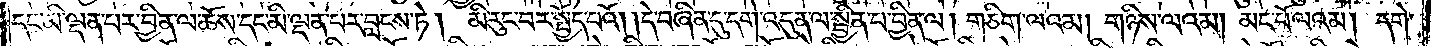དང་མི་ལྡན་པར་བྱིན་ལ་ཆོས་དང་མི་ལྡན་པར་བླངས་ཏེ། མི་རུང་བར་སྤྱོད་པའོ། །དེ་བཞིན་དུ་དགེ་འདུན་ལ་སྦྱིན་པ་བྱིན་ལ། གཅིག་ལའམ། གཉིས་ལའམ། མང་པོ་ལའམ། དགེ་
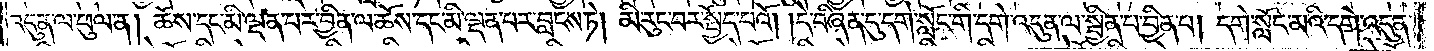འདུན་ལ་ཕུལ་ན། ཆོས་དང་མི་ལྡན་པར་བྱིན་ལ་ཆོས་དང་མི་ལྡན་པར་བླངས་ཏེ། མི་རུང་བར་སྤྱོད་པའོ། །དེ་བཞིན་དུ་དགེ་སློང་གི་དགེ་འདུན་ལ་སྦྱིན་པ་བྱིན་པ། དགེ་སློང་མའི་དགེ་འདུན་
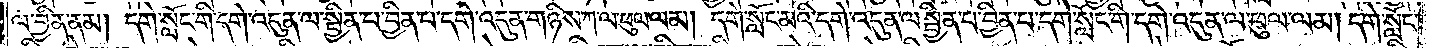ལ་བྱིན་ནམ། དགེ་སློང་གི་དགེ་འདུན་ལ་སྦྱིན་པ་བྱིན་པ་དགེ་འདུན་གཉིས་ཀ་ལ་ཕུལ་ལམ། དགེ་སློང་མའི་དགེ་འདུན་ལ་སྦྱིན་པ་བྱིན་པ་དགེ་སློང་གི་དགེ་འདུན་ལ་ཕུལ་ལམ། དགེ་སློང་
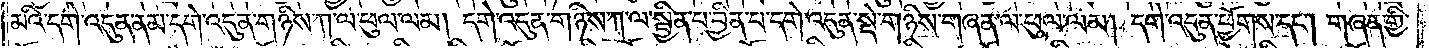མའི་དགེ་འདུན་ནམ་དགེ་འདུན་གཉིས་ཀ་ལ་ཕུལ་ལམ། དགེ་འདུན་གཉིས་ཀ་ལ་སྦྱིན་པ་བྱིན་པ་དགེ་འདུན་སྡེ་གཉིས་གཞན་ལ་ཕུལ་ལམ། དགེ་འདུན་ཕྱོགས་དང༌། གཞན་གྱི་
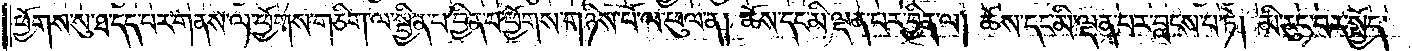ཕྱོགས་སུ་ཐ་དད་པར་གནས་ལ་ཕྱོགས་གཅིག་ལ་སྦྱིན་པ་བྱིན་པ་ཕྱོགས་གཉིས་པོ་ལ་ཕུལ་ན། ཆོས་དང་མི་ལྡན་པར་བྱིན་ལ། ཆོས་དང་མི་ལྡན་པར་བླངས་ཏེ། མི་རུང་བར་སྤྱོད་
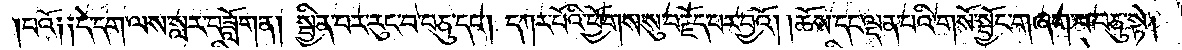པའོ༑ ༑དེ་དག་ལས་སླར་བཟློག་ན། སྦྱིན་པར་རུང་བ་བཅུ་དང༌། དཀར་པོའི་ཕྱོགས་སུ་བརྗོད་པར་བྱའོ། །ཆོས་དང་ལྡན་པའི་གསོ་སྦྱོང་གཞག་པ་བཅུ་སྟེ།
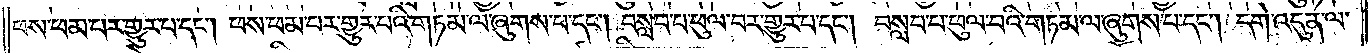ཕས་ཕམ་པར་གྱུར་པ་དང༌། ཕས་ཕམ་པར་གྱུར་པའི་གཏམ་ལ་ཞུགས་པ་དང༌། བསླབ་པ་ཕུལ་བར་གྱུར་པ་དང༌། བསླབ་པ་ཕུལ་བའི་གཏམ་ལ་ཞུགས་པ་དང༌། དགེ་འདུན་ལ་
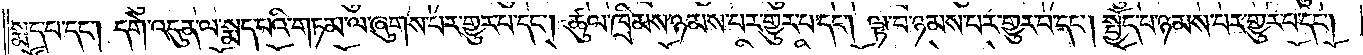སྨད་པ་དང༌། དགེ་འདུན་ལ་སྨད་པའི་གཏམ་ལ་ཞུགས་པར་གྱུར་པ་དང༌། ཚུལ་ཁྲིམས་ཉམས་པར་གྱུར་པ་དང༌། ལྟ་བ་ཉམས་པར་གྱུར་པ་དང༌། སྤྱོད་པ་ཉམས་པར་གྱུར་པ་དང༌།
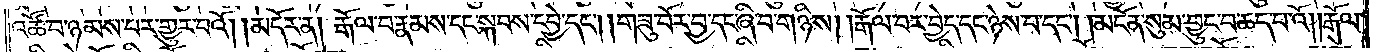འཚོ་བ་ཉམས་པར་གྱུར་པའོ། །མདོར་ན། རྒོལ་བ་རྣམས་དང་སྐབས་དབྱེ་དང༌། །གཟུ་བོར་བྱ་དང་ཞི་བ་གཉིས། །རྒོལ་བར་བྱེད་དང་ཉེས་པ་དང༌། །མངོན་སུམ་བྱུང་བ་ཆད་པའོ། །རྒོལ་
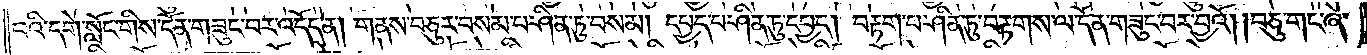བའི་དགེ་སློང་གིས་དོན་གཟུང་བར་འདོད་ན། གནས་བཅུར་བསམ་པ་ཤིན་ཏུ་བསམ། དཔྱད་པ་ཤིན་ཏུ་དཔྱད། བརྟག་པ་ཤིན་ཏུ་བརྟགས་ལ་དོན་གཟུང་བར་བྱའོ། །བཅུ་གང་ཞེ་
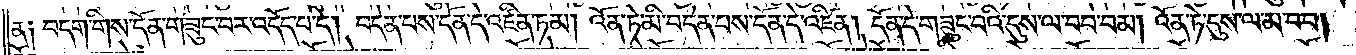ན༑ བདག་གིས་དོན་གཟུང་བར་འདོད་པ་དེ། བདེན་པས་དོན་དེ་འཛིན་ཏམ། འོན་ཏེ་མི་བདེན་པས་དོན་དེ་འཛིན། དོན་དེ་གཟུང་བའི་དུས་ལ་བབ་བམ། འོན་ཏེ་དུས་ལ་མ་བབ།
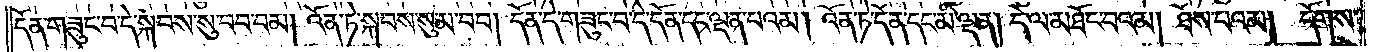དོན་གཟུང་བ་དེ་སྐབས་སུ་བབ་བམ། འོན་ཏེ་སྐབས་སུ་མ་བབ། དོན་དེ་གཟུང་བ་དེ་དོན་དང་ལྡན་པའམ། འོན་ཏེ་དོན་དང་མི་ལྡན། དེ་ལ་མཐོང་བའམ། ཐོས་པའམ། དོགས་
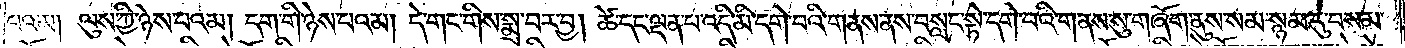པའམ། ལུས་ཀྱི་ཉེས་པའམ། དག་གི་ཉེས་པའམ། དེ་གང་གིས་སྨྲ་བར་བྱ། ཚེ་དང་ལྡན་པ་འདི་མི་དགེ་བའི་གནས་ནས་བསླང་སྟེ་དགེ་བའི་གནས་སུ་གཞོག་ནུས་སམ་སྙམ་དུ་བསམ་
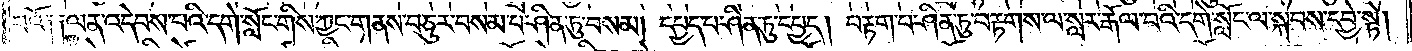པའོ༑ ༑ལན་འདེབས་པའི་དགེ་སློང་གིས་ཀྱང་གནས་བཅུར་བསམ་པ་ཤིན་ཏུ་བསམ། དཔྱད་པ་ཤིན་ཏུ་དཔྱད། བརྟག་པ་ཤིན་ཏུ་བརྟགས་ལ་སླར་རྒོལ་བའི་དགེ་སློང་ལ་སྐབས་དབྱེ་སྟེ།
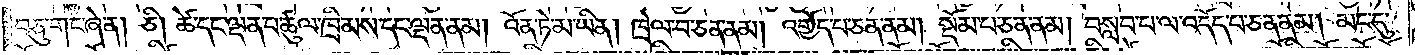བཅུ་གང་ཞེ་ན། ཅི། ཚེ་དང་ལྡན་པ་ཚུལ་ཁྲིམས་དང་ལྡན་ནམ། འོན་ཏེ་མ་ཡིན། ཁྲེལ་བ་ཅན་ནམ། འགྱོད་པ་ཅན་ནམ། སྡོམ་པ་ཅན་ནམ། བསླབ་པ་ལ་འདོད་པ་ཅན་ནམ། མང་དུ་
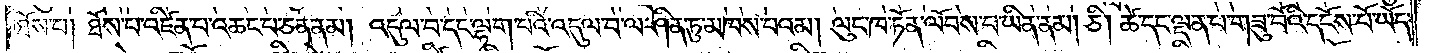ཐོས་པ། ཐོས་པ་འཛིན་པ་འཆང་པ་ཅན་ནམ། འདུལ་བ་དང་ལྷག་པའི་འདུལ་བ་ལ་ཤིན་ཏུ་མཁས་པའམ། ལུང་ཁ་ཏོན་ལོབས་པ་ཡིན་ནམ། ཅི། ཚེ་དང་ལྡན་པ་གཟུ་བོའི་དངོས་པོ་ཡོད་
